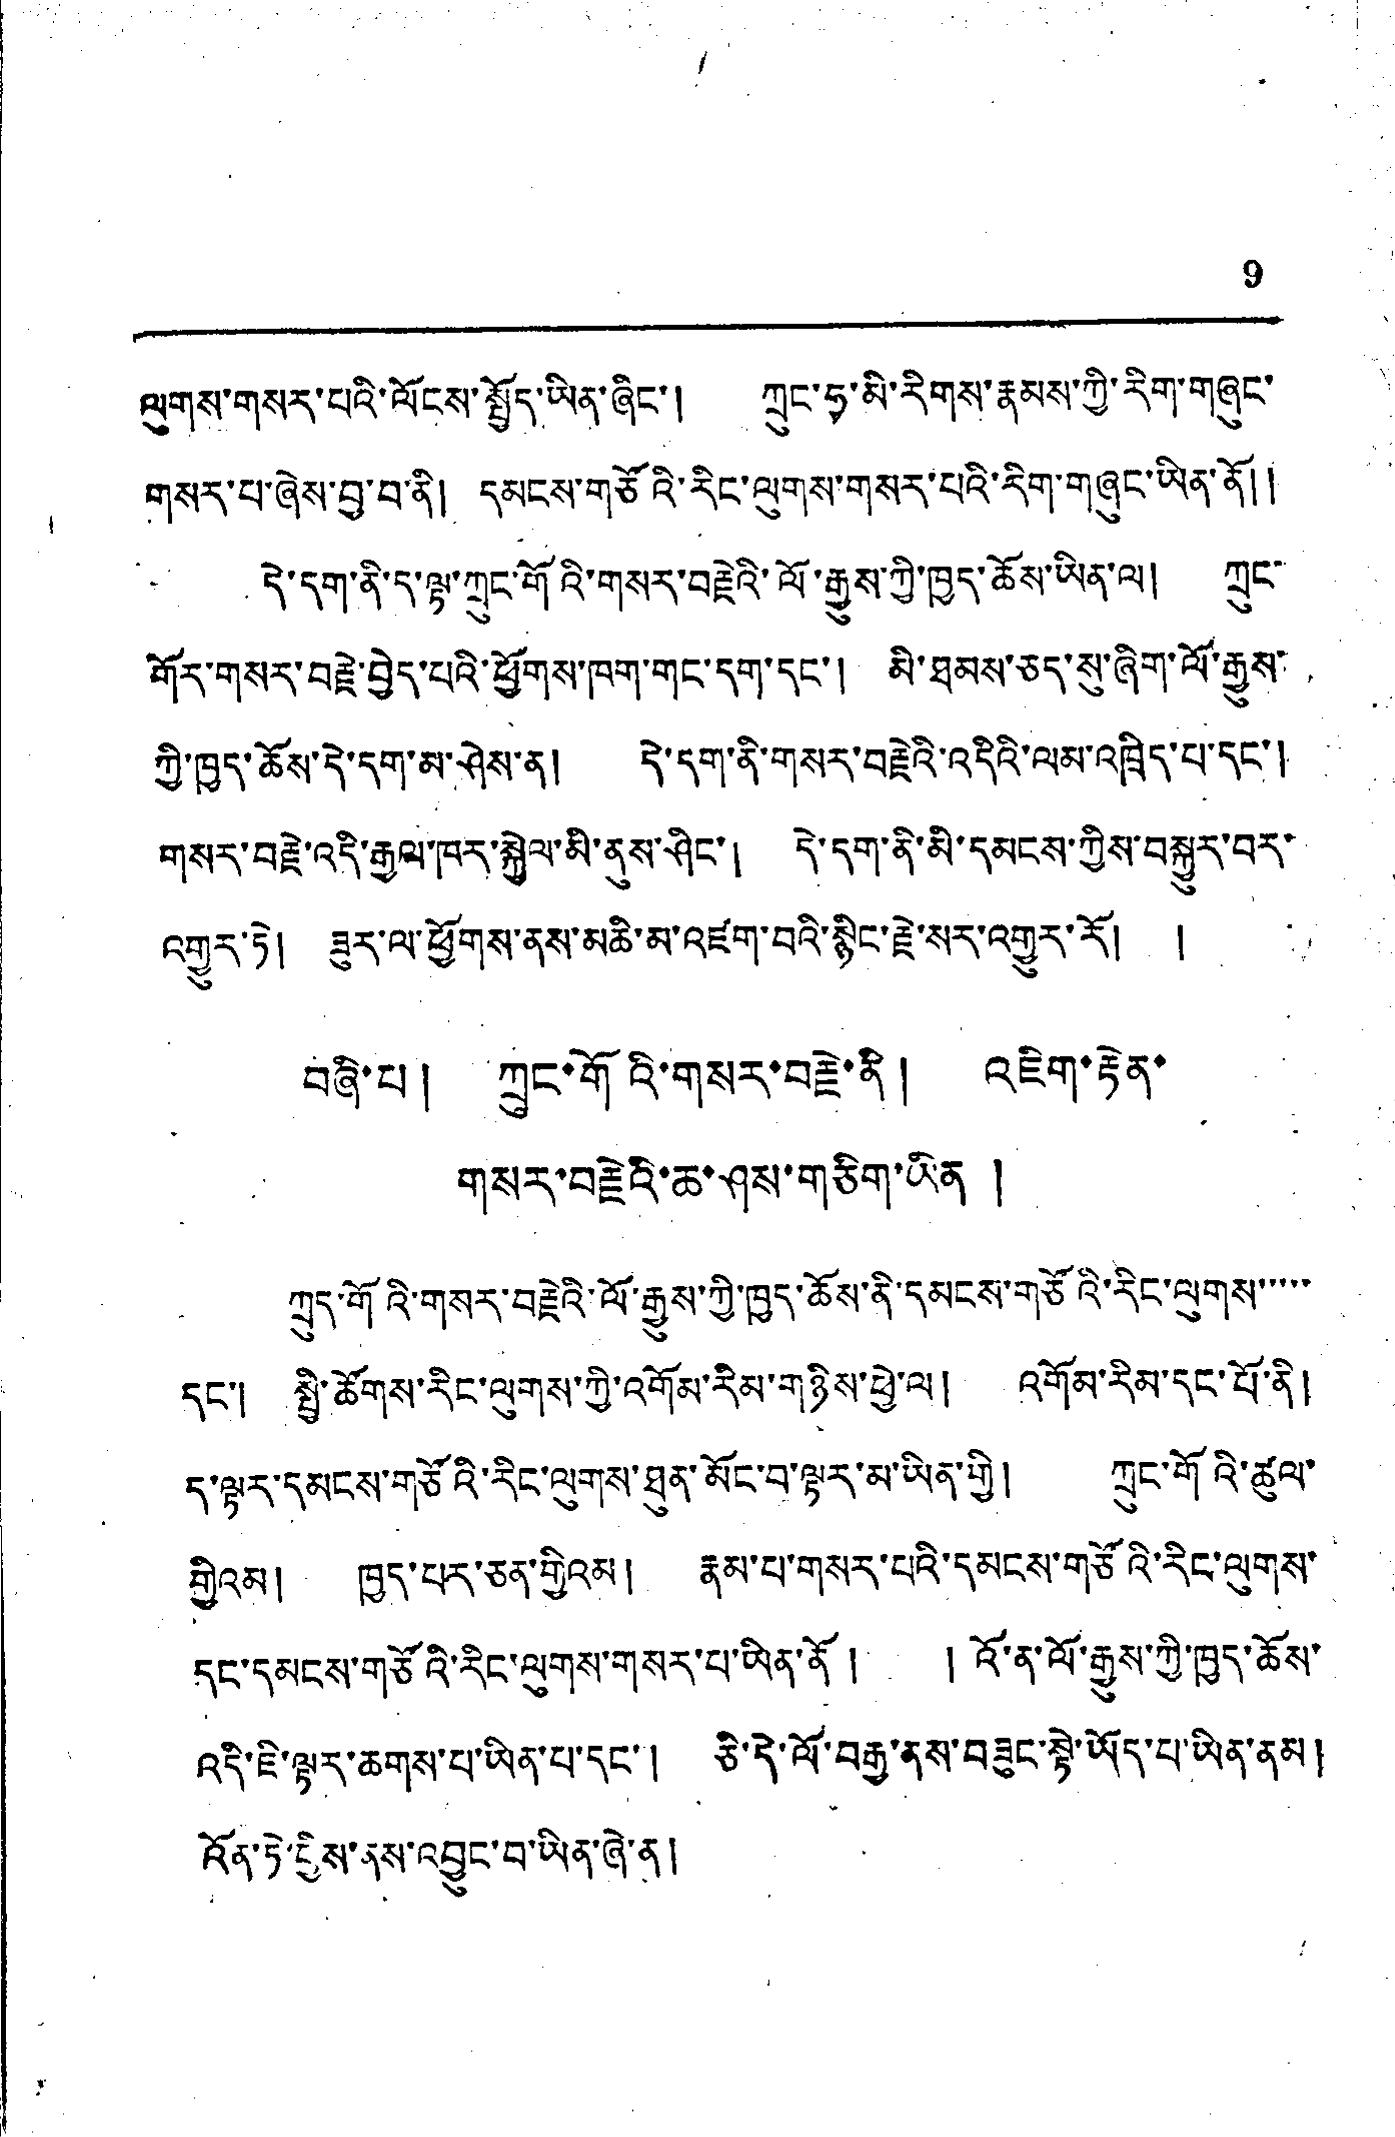9
ལུགས་གསར་པའི་ལོངས་སྤྱོད་ཡིན་ཞིང་། ཀྲུང་ཧྭ་མི་རིགས་རྣམས་ཀྱི་རིག་གཞུང་
གསར་པ་ཞེས་བྱ་བ་ནི། དམངས་གཙོའི་རིང་ལུགས་གསར་པའི་རིག་གཞུང་ཡིན་ནོ།།
དེ་དག་ནི་དུ་ལྟ་ཀྲུང་གོའི་གསར་བརྗེའི་ལོ་རྒྱུས་ཀྱི་ཁྱད་ཆོས་ཡིན་ལ། ཀྲུང་
གོར་གསར་བརྗེ་བྱེད་པའི་ཕྱོགས་ཁག་གང་དག་དང་། མི་ཐམས་ཅད་སུ་ཞིག་ལོ་རྒྱུས་
ཀྱི་ཁྱད་ཆོས་དེ་དག་མ་ཤེས་ན། དེ་དག་ནི་གསར་བརྗེའི་འདིའི་ལམ་འཁྲིད་པ་དང་།
གསར་བརྗེ་འདི་རྒྱལ་ཁར་སྐྱེལ་མི་ནས་ཤིང་། དེ་དག་ནི་མི་དམངས་ཀྱིས་བསྐྱུར་བར་
འགྱུར་ཏེ། ཟུར་ལ་ཕྱོགས་ནས་མཆི་མ་འཛག་བའི་སྙིང་རྗེ་སར་འགྱུར་རོ། །
བཞི་པ། ཀྲུང་གོའི་གསར་བརྗེ་ནི། འཇིག་རྟེན་
གསར་བརྗེའི་ཆ་ཤས་གཅིག་ཡིན །
ཀྲུད་གོའི་གསར་བརྗེའི་ལོ་རྒྱུས་ཀྱི་ཁྱད་ཆོས་ནི་དམངས་གཙོའི་རིང་ལུགས་་་་་
དང་། སྤྱི་ཚོགས་རིང་ལུགས་ཀྱི་འགོམ་རིམ་གཉིས་ཕྱེ་ལ། འགོམ་རིམ་དང་པོ་ནི།
ད་ལྟར་དམངས་གཙོའི་རིང་ལུགས་ཐུན་མོང་བ་ལྟར་མ་ཡིན་གྱི། ཀྲུང་གོའི་ཚུལ་
གྱིའམ། ཁྱད་པར་ཅན་གྱིའམ། རྣམ་པ་གསར་པའི་དམངས་གཙོའི་རིང་ལུགས་
དང་དམངས་གཙོའི་རིང་ལུགས་གསར་པ་ཡིན་ནོ། །འོ་ན་ལོ་རྒྱུས་ཀྱི་ཁྱད་ཆོས་
འདི་ཇི་ལྟར་ཆགས་པ་ཡིན་པ་དང་། ཅི་དེ་ལོ་བརྒྱ་ནས་བཟུང་སྟེ་ཡོད་པ་ཡིན་ནམ།
འོན་ཏེ་བྱིས་ནས་འབྱུང་བ་ཡིན་ཞེ་ན། །
